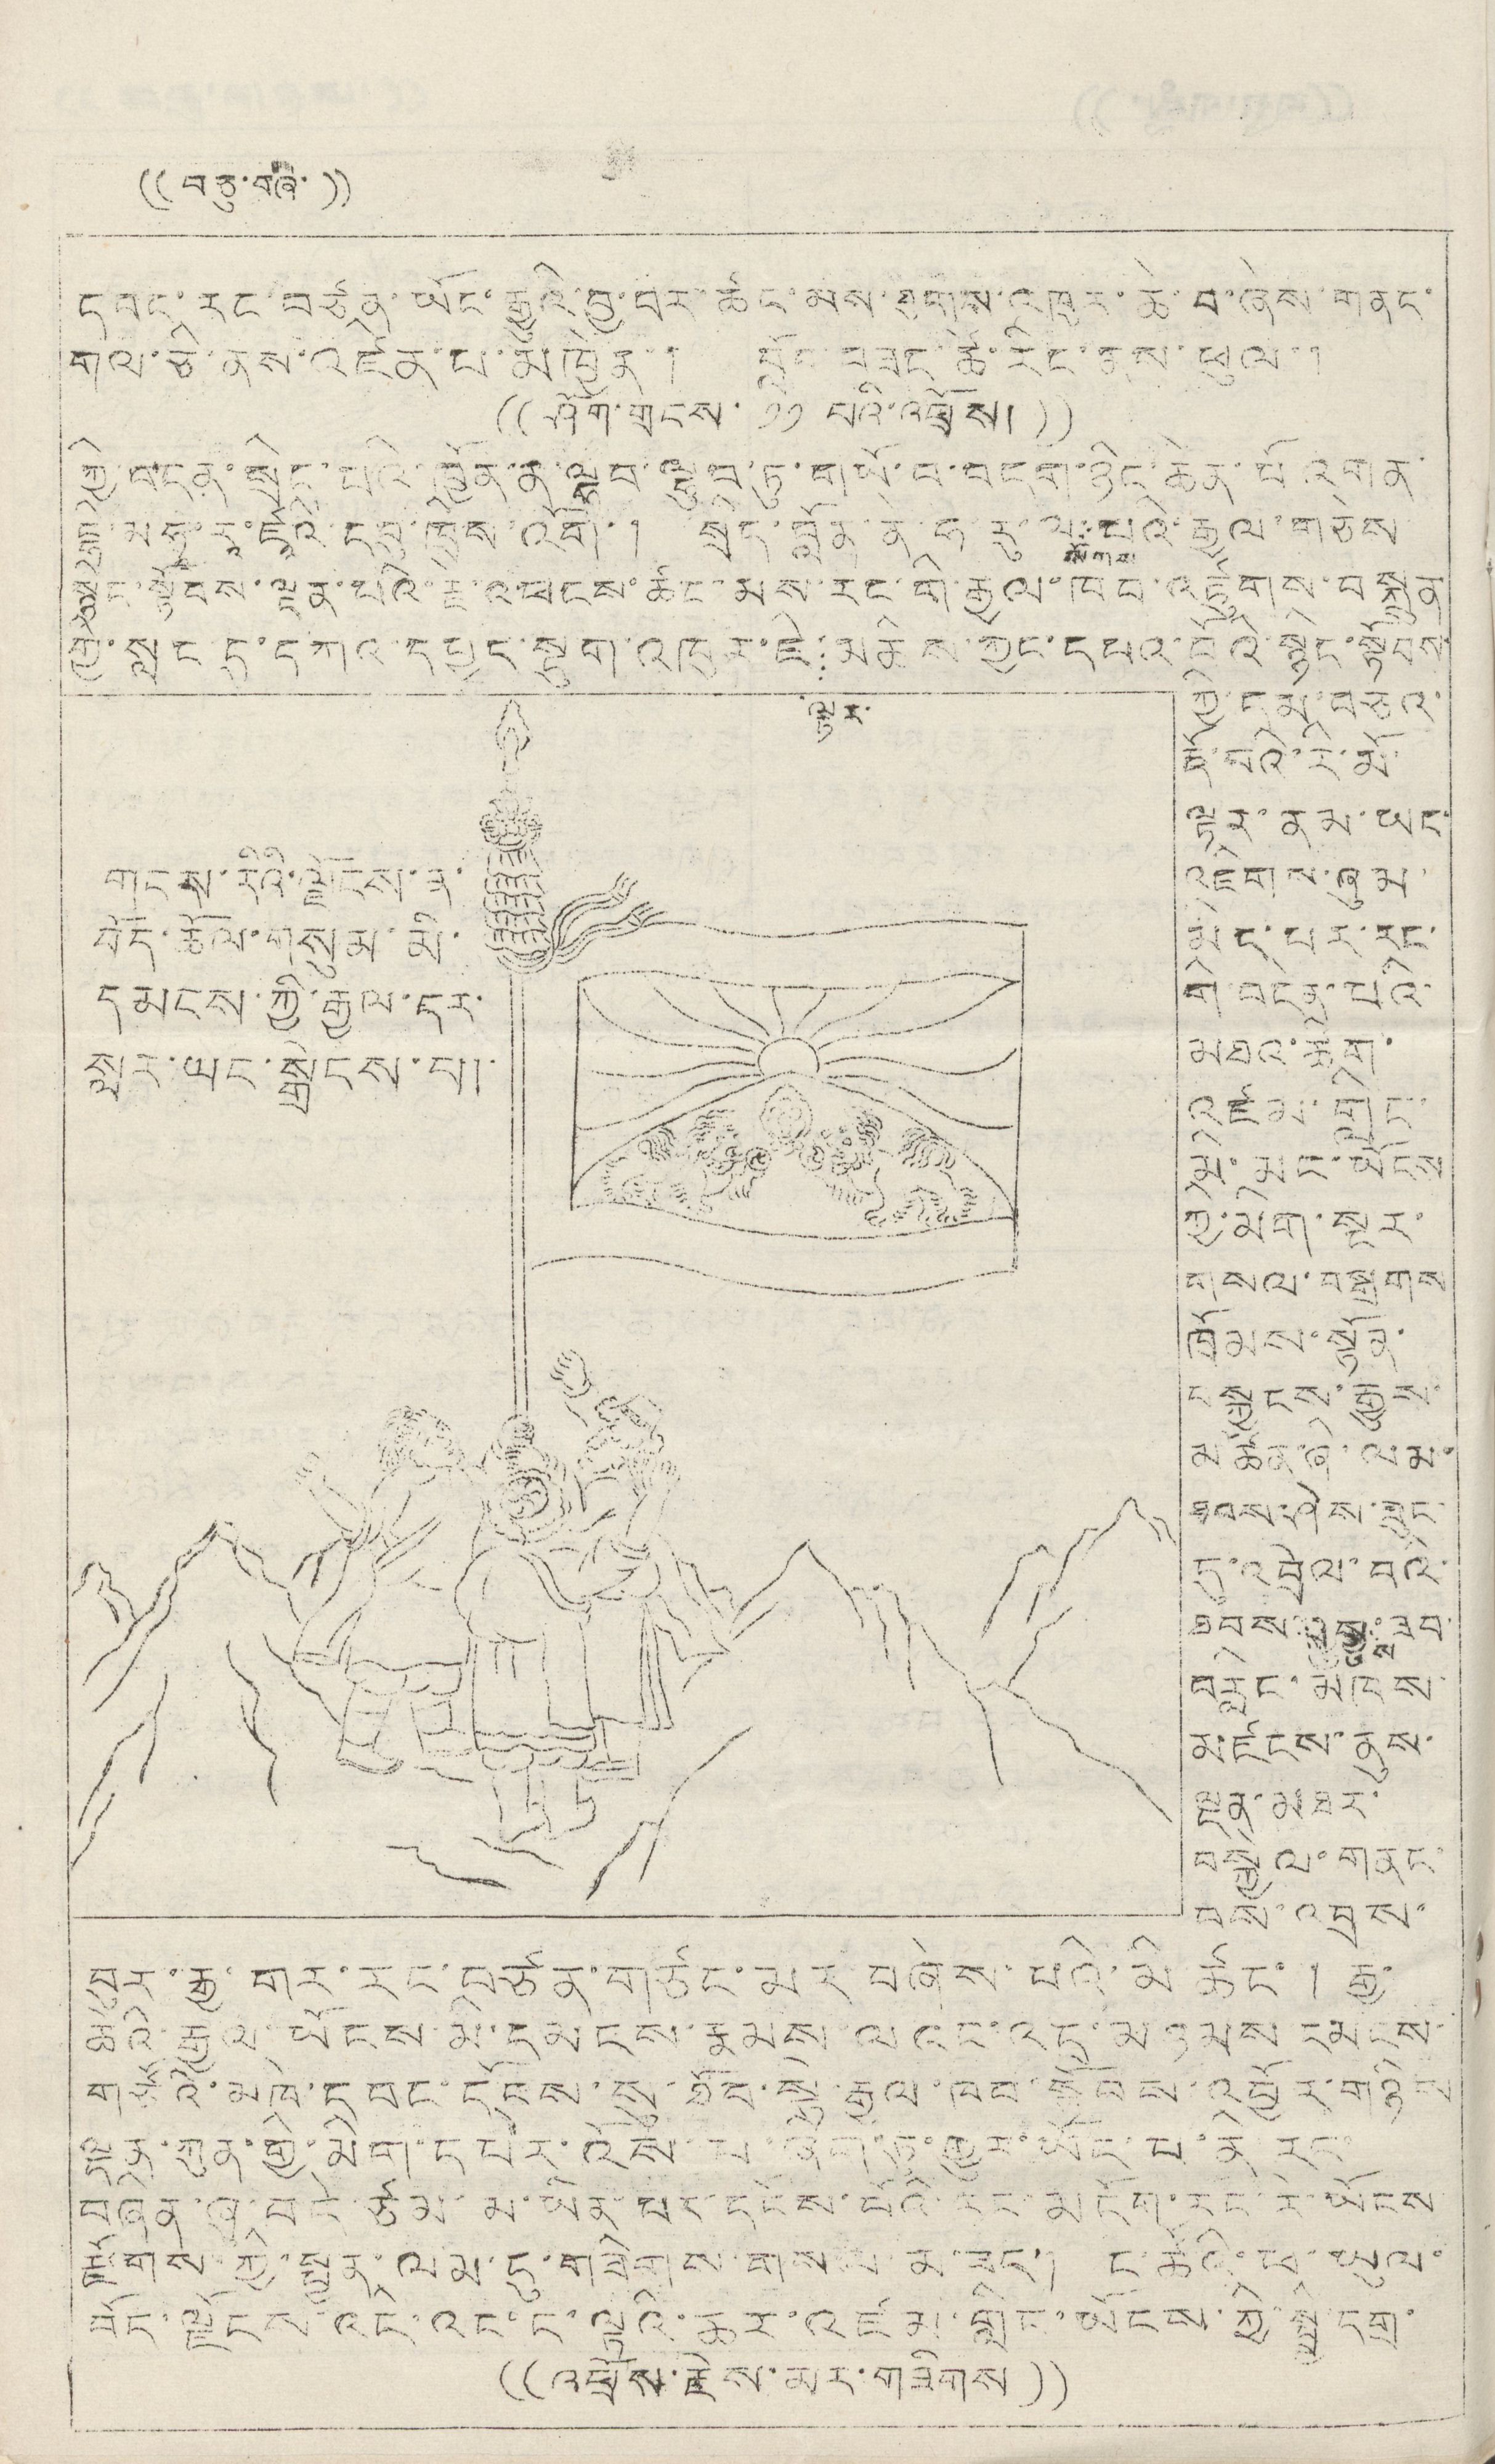(( བཅུ་བཞི་ ))
དབང་རང་བཙན་ཡོང་རྒྱུའི་བྱ་བར་ཚང་མས་ཐུགས་འཁུར་ཆེ་བ་ཞེས་གནང་
གལ་ཅི་ནས་འཛིན་པ་མཁྱེན་། བློབ་བཟང་ཚེ་རིང་ནས་ཕུལ་།
(( ཤོག་གྲངས་ ༡༡ པའི་འཕྲོས། ))
ཀྱི་བདན་སྲིད་པའི་ཁྱོན་ན་ལྷབ་ལྷུབ་ཏུ་གསོལ་བདག་ཉིད་ཆེན་པོ་འགན་
ལྷི་མཧཱ་རཱ་ཛཱའི་དབུ་ཁྲིས་འོག་། སྲིད་བློན་ནེ་ཧ་རུ་ལ་
སོགས
པའི་རྒྱལ་གཅེས
སྙིང་སྟོབས་ལྡན་པའི་རྔ་འཕངས་ཚང་མས་རང་གི་རྒྱལ་ཁབ་འཛུགས་བསྐྲུན
གྱི་སླང་དུ་དཀའ་དཔྱད་སྡུག་འཁུར་ཇི་
ལྟར་
མཆིས་ཀྱང་དཔའ་བོའི་སྙིང་སྟོབས་
ཀྱི་དམ་བཅའ་
རྡོ་བའི་རི་མོ་
ལྟར་ནམ་ཡང་
འཇིགས་ཞུམ་
མེད་པར་རང་
གི་བདེན་པའི་
མཐའ་ཚོག་
འཛམ་གླིང་
མི་མང་ཡོངས
ཀྱི་མིག་སྔར་
གསལ་བསྒྲགས
ཁྲོམས་སྟོན་
བསྐྱངས་རྒྱུས་
མཚན་ཞི་ལམ་
ཐབས་ཤེས་ཟུང་
དུ་འབྲེལ་བའི་
ཐབས་བྱུ
ས་
ཟབ་
བརླིང་མཁས་
མཛངས་ནུས་
ལྡན་མཐར་
བསྐྱེལ་གནང་
བས་འབྲས་
བུར་རྒྱ་གར་རང་བཙན་མར་བཞེས་པའི་མི་ཚང་། རྒྱ་
ཆའི་རྒྱལ་ཡོངས་མི་དམངས་རྣམས་ལའང་འདྲ་མཉམས དམངས་
གཙོའི་མཁེ་དབང་དངོས་སུ་ཐོབ་སྟེ་རྒྱལ་ཁབ་སྟོབས་འབྱོར་གཉིས
ལྡན་ཀུན་གྱི་མིག་དཔེར་འོས་པ་ཞིག་ཏུ་གྱུར་ཡོད་པ་ནི་རང་
བཞིན་ཞུ་བདེ་ཙམ་མ་ཡིན་པར་དངོས་པོའི་རང་མདོག་རང་རེ་ཡོངས
རྫོགས་ཀྱི་སྤྱན་ལམ་དུ་གཟིགས་གསལ་མ་ཟད་། ང་ཚོའི་ཕ་ཡུལ་
བོད་ལྗོངས་འདི་འང་ད་ལྟའི་ཆར་འཛམ་གླིང་ཡོངས་ཀྱི་སྤྱི་དགྲ་
གངས་རིའི་ལྗོངས་ན་
བོད་ཆོལ་གསུམ་མི་
དམངས་ཀྱི་རྒྱལ་དར་
སླར་ཡང་སྒྲེངས་པ།
(( འཕྲོས་རྗེས་མར་གཟིགས ))
